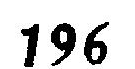196
